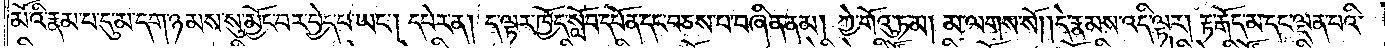མོའི་རྣམ་པ་དུ་མ་དག་ཉམས་སུ་མྱོང་བར་བྱེད་པ་ཡང༌། དཔེར་ན། ད་ལྟར་ཁྱོད་སློབ་དཔོན་དང་བཅས་པ་བཞིན་ནམ། ཀྱེ་གོའུ་ཏ་མ། མ་ལགས་སོ། །དེ་རྣམས་འདི་ལྟར། རྟ་རྒོད་མ་དང་ལྡན་པའི་
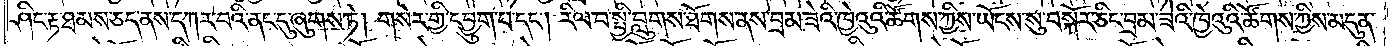ཤིང་རྟ་ཐམས་ཅད་ནས་དཀར་བའི་ནང་དུ་ཞུགས་ཏེ། གསེར་གྱི་དབྱུག་པ་དང༌། རིལ་བ་སྤྱི་བླུགས་ཐོགས་ནས་བྲམ་ཟེའི་ཁྱེའུའི་ཚོགས་ཀྱིས་ཡོངས་སུ་བསྐོར་ཅིང་བྲམ་ཟེའི་ཁྱེའུའི་ཚོགས་ཀྱིས་མདུན་
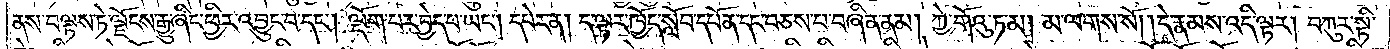ནས་བལྟས་ཏེ་ལྗོངས་རྒྱུ་ཞིང་ཕྱིར་འབྱུང་བ་དང༌། ལྡོག་པར་བྱེད་པ་ཡང༌། དཔེར་ན། ད་ལྟར་ཁྱོད་སློབ་དཔོན་དང་བཅས་པ་བཞིན་རྣམ། ཀྱེ་གོའུ་ཏམ། མ་ལགས་སོ། །དེ་རྣམས་འདི་ལྟར། བཀུར་སྟི་
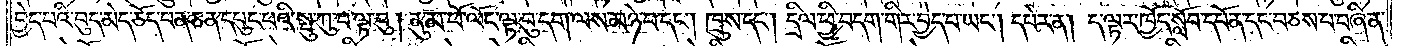བྱེད་པའི་བུད་མེད་ཅོད་པན་ཅན་དཔུང་པའི་སྤུ་ཀུ་བ་ལྟ་བུ། ནུ་མ་ཕོ་ལོང་ལྟ་བུ་དག་ལས་མཉེ་བ་དང༌། ཁྲུས་དང༌། དྲིལ་ཕྱི་བདག་གིར་བྱེད་པ་ཡང༌། དཔེར་ན། ད་ལྟར་ཁྱོད་སློབ་དཔོན་དང་བཅས་པ་བཞིན་
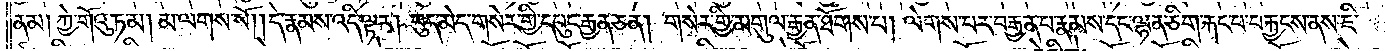ནམ། ཀྱེ་གོའུ་ཏ་མ། མ་ལགས་སོ། །དེ་རྣམས་འདི་ལྟར། བུད་མེད་གསེར་གྱི་དཔུང་རྒྱན་ཅན། གསེར་གྱི་མགུལ་རྒྱན་ཐོགས་པ། ལེགས་པར་བརྒྱན་པ་རྣམས་དང་ལྷན་ཅིག་རྐང་པ་བརྐྱངས་ནས་ཇི་
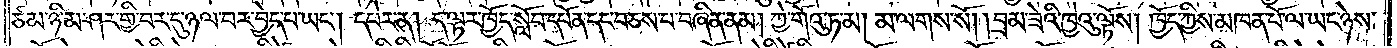ཙམ་ཉི་མ་ཤར་གྱི་བར་དུ་ཉལ་བར་བྱེད་པ་ཡང༌། དཔེར་ན། ད་ལྟར་ཁྱོད་སློབ་དཔོན་དང་བཅས་པ་བཞིན་ནམ། ཀྱེ་གོའུ་ཏ་མ། མ་ལགས་སོ། །བྲམ་ཟེའི་ཁྱེའུ་ལྟོས། ཁྱོད་ཀྱིས་མཁན་པོ་ལ་ཡང་ཉེས་
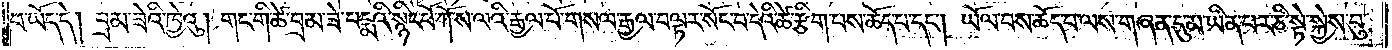པ་ཡོད་དེ། བྲམ་ཟེའི་ཁྱེའུ། གང་གི་ཚེ་བྲམ་ཟེ་པདྨའི་སྙིང་པོ་ཀོ་ས་ལའི་རྒྱལ་པོ་གསལ་རྒྱལ་བལྟར་སོང་བ་དེའི་ཚེ་རྩིག་པས་ཆོད་པ་དང༌། ཡོལ་བས་ཆོད་པ་ལས་གཞན་དུ་མ་ཡིན་པར་ཅི་སྟེ་སྐྱེས་བུ་
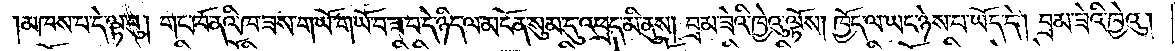མཁས་པ་དེ་ལྟ་བུ། གང་ཁོ་ནའི་ཁ་ཟས་གཡོ་གཡོ་བ་ཟ་བ་དེ་ཉིད་ལ་མངོན་སུམ་དུ་འཕྲད་མི་ནུས། བྲམ་ཟེའི་ཁྱེའུ་ལྟོས། ཁྱོད་ལ་ཡང་ཉེས་པ་ཡོད་དེ། བྲམ་ཟེའི་ཁྱེའུ།
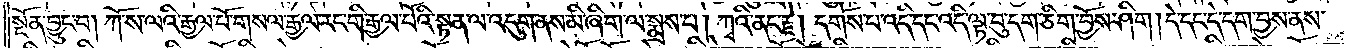སྔོན་བྱུང་བ། ཀོ་ས་ལའི་རྒྱལ་པོ་གསལ་རྒྱལ་རང་གི་རྒྱལ་པོའི་སྟན་ལ་འདུག་ནས་མི་ཞིག་ལ་སྨྲས་པ། ཀྭའི་ནང་རྗེ། དགོས་པ་འདི་དང་འདི་ལྟ་བུ་དག་ཅིག་བྱོས་ཤིག །དེ་དང་དེ་དག་བྱས་ནས་
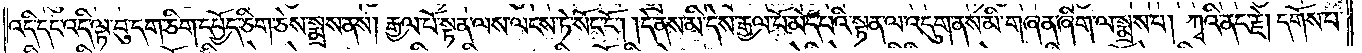འདི་དང་འདི་ལྟ་བུ་དག་ཅིག་དཔྱོད་ཅིག་ཅེས་སྨྲས་ནས། རྒྱལ་པོ་སྟན་ལས་ལངས་ཏེ་སོང་ངོ༌། །དེ་ནས་མི་དེས་རྒྱལ་པོ་མེད་པའི་སྟན་ལ་འདུག་ནས་མི་གཞན་ཞིག་ལ་སྨྲས་པ། ཀྭའི་ནང་རྗེ། དགོས་པ་
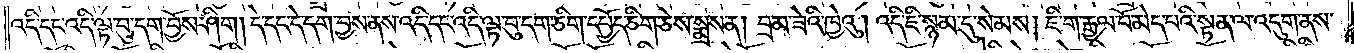འདི་དང་འདི་ལྟ་བུ་དག་བྱོས་ཤིག །དེ་དང་དེ་དག་བྱས་ནས་འདི་དང་འདི་ལྟ་བུ་དག་ཅིག་དཔྱོད་ཅིག་ཅེས་སྨྲས་ན། བྲམ་ཟེའི་ཁྱེའུ། འདི་ཇི་སྙམ་དུ་སེམས། ཇི་ག་རྒྱལ་པོ་མེད་པའི་སྟན་ལ་འདུག་ནས་
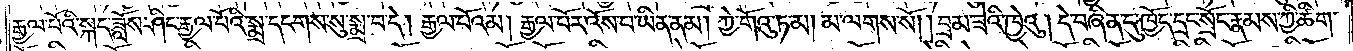རྒྱལ་པོའི་སྐད་ཟློས་ཤིང་རྒྱལ་པོའི་སྨྲ་དངགས་སུ་སྨྲ་བ་དེ། རྒྱལ་པོའམ། རྒྱལ་པོར་འོས་པ་ཡིན་ནམ། ཀྱེ་གོའུ་ཏ་མ། མ་ལགས་སོ། །བྲམ་ཟེའི་ཁྱེའུ། དེ་བཞིན་དུ་ཁྱོད་དྲང་སྲོང་རྣམས་ཀྱི་ཚིག་
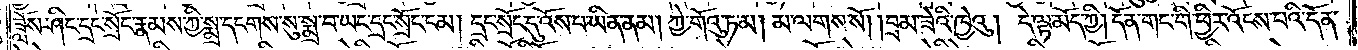ཟློས་ཤིང་དྲང་སྲོང་རྣམས་ཀྱི་སྨྲ་དངགས་སུ་སྨྲ་བ་ཡང་དྲང་སྲོང་ངམ། དྲང་སྲོང་དུ་འོས་པ་ཡིན་ནམ། ཀྱེ་གོའུ་ཏ་མ། མ་ལགས་སོ། །བྲམ་ཟེའི་ཁྱེའུ། དེ་ལྟ་མོད་ཀྱི། དོན་གང་གི་ཕྱིར་འོངས་པའི་དོན་
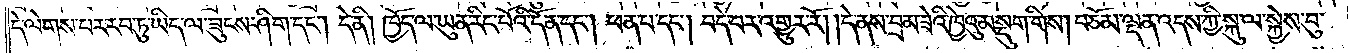དེ་ལེགས་པར་རབ་ཏུ་ཡིད་ལ་ཟུངས་ཤིག་དང༌། དེ་ནི། ཁྱོད་ལ་ཡུན་རིང་པོའི་དོན་དང༌། ཕན་པ་དང༌། བདེ་བར་འགྱུར་རོ། །དེ་ནས་བྲམ་ཟེའི་ཁྱེའུ་མ་སྡུག་གིས། བཅོམ་ལྡན་འདས་ཀྱི་སྐུ་ལ་སྐྱེས་བུ་
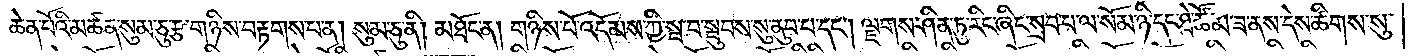ཆེན་པོའི་མཚན་སུམ་ཅུ་རྩ་གཉིས་བརྟགས་པ་ན། སུམ་ཅུ་ནི། མཐོང་ན། གཉིས་པོ་འདོམས་ཀྱི་སྦ་བ་སྦུབས་སུ་ནུབ་པ་དང༌། ལྗགས་ཤིན་ཏུ་རིང་ཞིང་སྲབ་པ་ལ་སོམ་ཉི་དང་ཐེ་ཚོམ་ཟ་ནས་དེས་ཚིགས་སུ་
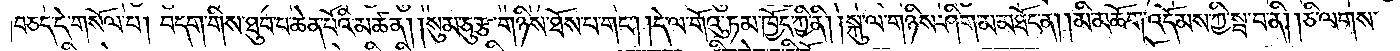བཅད་དེ་གསོལ་པ། བདག་གིས་ཐུབ་པ་ཆེན་པོའི་མཚན། །སུམ་ཅུ་རྩ་གཉིས་ཐོས་པ་གང༌། །དེ་ལ་གོའུ་ཏམ་ཁྱོད་ཀྱི་ནི། །སྐུ་ལ་གཉིས་ཤིག་མ་མཐོང་ན། །མི་མཆོག་འདོམས་ཀྱི་སྦ་བ་ནི། །ཅི་ལགས་
